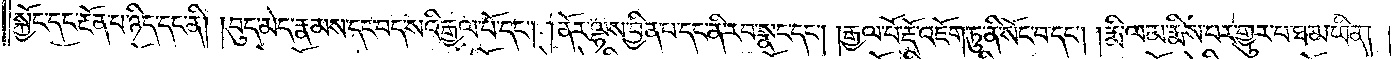སྐྱོང་དང་རྔོན་པ་ཉིད་དང་ནི། །བུད་མེད་རྣམས་དང་བད་སའི་རྒྱལ་པོ་དང༌། །ནོར་ལྷས་བྱིན་པ་དང་ནི་རབ་སྣང་དང༌། །རྒྱལ་པོ་རྡོ་འཇོག་ཏུ་ནི་སོང་བ་དང༌། །རྨི་ལམ་རྨིས་པར་གྱུར་པ་ཐ་མ་ཡིན། །
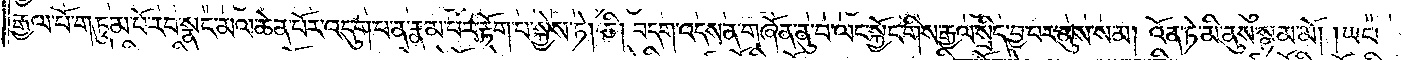རྒྱལ་པོ་གཏུམ་པོ་རབ་སྣང་མལ་ཆེན་པོར་འདུག་པ་ན་རྣམ་པར་རྟོག་པ་སྐྱེས་ཏེ། ཅི། བདག་འདས་ན་གཞོན་ནུ་བ་ལང་སྐྱོང་གིས་རྒྱལ་སྲིད་བྱ་བར་ནུས་སམ། འོན་ཏེ་མི་ནུས་སྙམ་མོ། །ཡང་
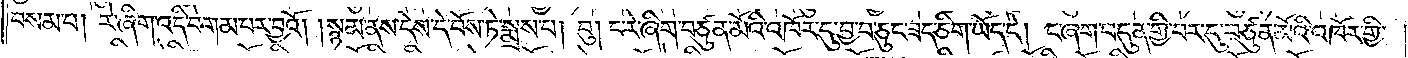བསམ་པ། རེ་ཞིག་འདི་བགམ་པར་བྱའོ། །སྙམ་ནས་དེས་དེ་བོས་ཏེ་སྨྲས་པ། བུ། ང་རེ་ཞིག་བཙུན་མོའི་འཁོར་དུ་བྱ་བ་ཅུང་ཟད་ཅིག་ཡོད་དེ། ང་ཞག་བདུན་གྱི་བར་དུ་བཙུན་མོའི་འཁོར་གྱི་
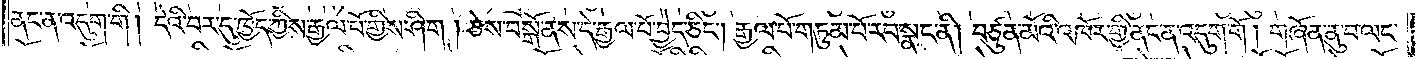ནང་ན་འདུག་གི། དེའི་བར་དུ་ཁྱོད་ཀྱིས་རྒྱལ་པོ་གྱིས་ཤིག །ཅེས་བསྒོ་ནས་དེ་རྒྱལ་པོ་བྱེད་ཅིང༌། རྒྱལ་པོ་གཏུམ་པོ་རབ་སྣང་ནི། བཙུན་མོའི་འཁོར་གྱི་ནང་ན་འདུག་གོ། གཞོན་ནུ་བ་ལང་
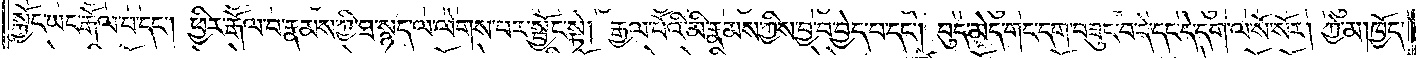སྐྱོང་ཡང་རྒོལ་བ་དང༌། ཕྱིར་རྒོལ་བ་རྣམས་ཀྱི་ཐ་སྙད་ལ་ལེགས་པར་སྦྱོང་སྟེ། རྒྱལ་པོའི་མི་རྣམས་ཀྱིས་བྱ་བ་བྱེད་པ་དང༌། བུད་མེད་གང་དག་བཟུང་བ་དེ་དང་དེ་དག་ལ་སོ་སོར། ཀྱེ་མ། ཁྱོད་
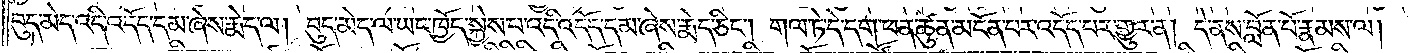བུད་མེད་འདི་འདོད་དམ་ཞེས་རྨེད་ལ། བུད་མེད་ལ་ཡང་ཁྱོད་སྐྱེས་པ་འདི་འདོད་དམ་ཞེས་རྨེད་ཅིང༌། གལ་ཏེ་དེ་དག་ཕན་ཚུན་མངོན་པར་འདོད་པར་གྱུར་ན། དེ་ནས་བློན་པོ་རྣམས་ལ།
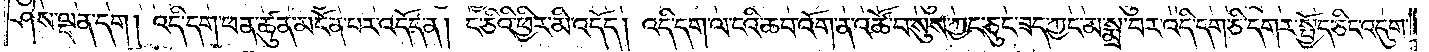ཤེས་ལྡན་དག། འདི་དག་ཕན་ཚུན་མངོན་པར་འདོད་ན། ང་ཅིའི་ཕྱིར་མི་འདོད། འདི་དག་ལ་ངའི་ཆབ་འོག་ན་འཚོ་བ་སུས་ཀྱང་ཅུང་ཟད་ཀྱང་མ་སྨྲ་བར་འདི་དག་ཅི་དགའ་སྤྱོད་ཅིང་འདུག་
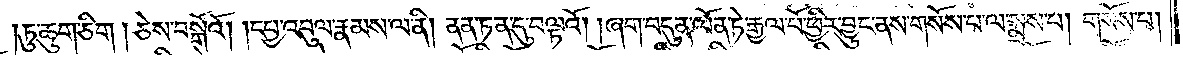ཏུ་ཆུག་ཅིག །ཅེས་བསྒོའོ། །དཔྱ་འབུལ་རྣམས་ལ་ནི། ནན་ཏན་དུ་བལྟའོ། །ཞག་བདུན་ལོན་ཏེ་རྒྱལ་པོ་ཕྱིར་བྱུང་ནས་གསོས་པ་ལ་སྨྲས་པ། གསོས་པ།
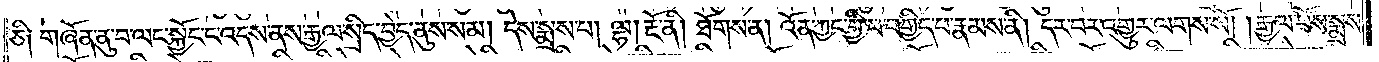ཅི༑ གཞོན་ནུ་བ་ལང་སྐྱོང་ང་འདས་ནས་རྒྱལ་སྲིད་བྱེད་ནུས་སམ། དེས་སྨྲས་པ། ལྷ། རྔོ་ནི། ཐོགས་ན། འོན་ཀྱང་བྱི་བ་བགྱིད་པ་རྣམས་ནི། དར་བར་འགྱུར་ལགས་སོ། །རྒྱལ་པོས་སྨྲས་
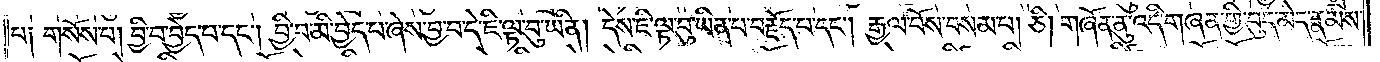པ༑ གསོས་པ། བྱི་བ་བྱེད་པ་དང༌། བྱི་བ་མི་བྱེད་པ་ཞེས་བྱ་བ་དེ་ཇི་ལྟ་བུ་ཡིན། དེས་ཇི་ལྟ་བུ་ཡིན་པ་བརྗོད་པ་དང༌། རྒྱལ་པོས་བསམ་པ། ཅི། གཞོན་ནུ་འདི་གཞན་གྱི་བུད་མེད་རྣམས་
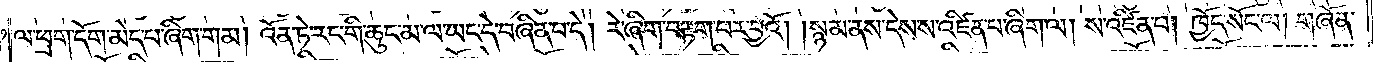ལ་ཕྲག་དོག་མེད་པ་ཞིག་གམ། འོན་ཏེ་རང་གི་ཆུང་མ་ལ་ཡང་དེ་བཞིན་པ་དེ། རེ་ཞིག་བརྟག་པར་བྱའོ། །སྙམ་ནས་དེས་ས་འཛིན་པ་ཞིག་ལ། ས་འཛིན་པ། ཁྱོད་སོང་ལ། གཞོན་
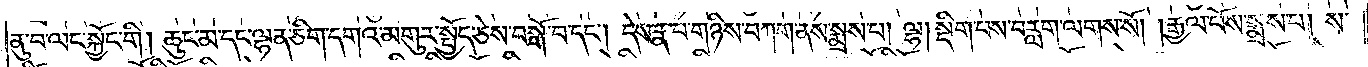ནུ་བ་ལང་སྐྱོང་གི། ཆུང་མ་དང་ལྷན་ཅིག་དགའ་མགུར་སྤྱོད་ཅེས་བསྒོ་བ་དང༌། དེས་རྣ་བ་གཉིས་བཀག་ནས་སྨྲས་པ། ལྷ། སྡིག་པས་བརླག་ལགས་སོ། །རྒྱལ་པོས་སྨྲས་པ། ས་
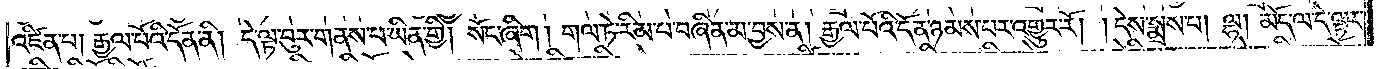འཛིན་པ། རྒྱལ་པོའི་དོན་ནི། དེ་ལྟ་བུར་གནས་པ་ཡིན་གྱི། སོང་ཞིག། གལ་ཏེ་རིམ་པ་བཞིན་མ་བྱས་ན། རྒྱལ་པོའི་དོན་ཉམས་པར་འགྱུར་རོ། །དེས་སྨྲས་པ། ལྷ། མོད་ལ་དེ་ལྟར་
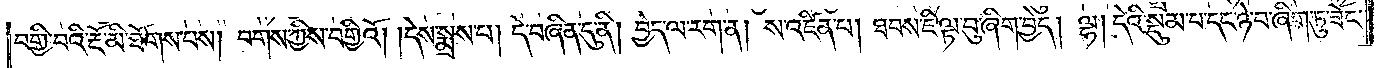བགྱི་བའི་རྔོ་མི་ཐོགས་པས། བགས་ཀྱིས་བགྱིའོ། །དེས་སྨྲས་པ། དེ་བཞིན་དུ་ནི། བྱེད་ལ་རག་ན། ས་འཛིན་པ། ཐབས་ཇི་ལྟ་བུ་ཞིག་བྱེད། ལྷ། དེའི་སྡུམ་པ་དང་ཉེ་བ་ཞིག་ཏུ་ཟོང་
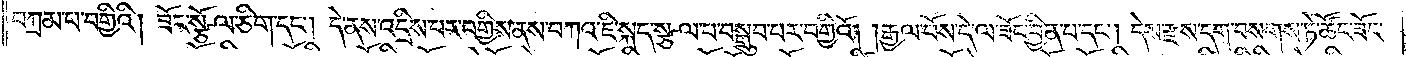བཀྲམ་པ་བགྱིའོ། །ཟོང་སྩོལ་ཅིག་དང༌། དེ་ནས་འདྲིས་པར་བགྱིས་ནས་བཀའ་ཇི་སྐད་སྩལ་པ་བསྒྲུབ་པར་བགྱིའོ། །རྒྱལ་པོས་དེ་ལ་ཟོང་བྱིན་པ་དང༌། དེས་རྫས་དག་བསགས་ཏེ་ཚོང་ཟོང་
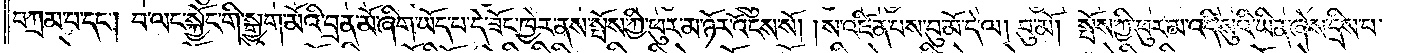བཀྲམ་པ་དང༌། བ་ལང་སྐྱོང་གི་སྒྱུག་མོའི་བྲན་མོ་ཞིག་ཡོད་པ་དེ་ཟོང་ཁྱེར་ནས་སྤོས་ཀྱི་ཕུར་མ་ཉོར་འོངས་སོ། །ས་འཛིན་པས་བུ་མོ་དེ་ལ། བུ་མོ། སྤོས་ཀྱི་ཕུར་མ་འདི་སུའི་ཡིན་ཞེས་དྲིས་པ་
